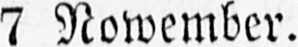7 Nowember.
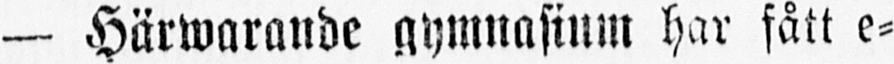— Härwarande gymnasium har fått e-
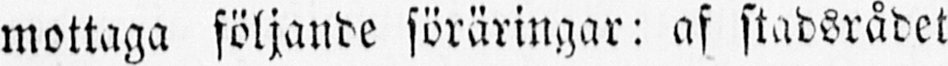mottaga följande föräringar: af stadsrådet
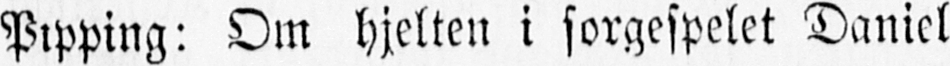Pipping: Om hjelten i sorgespelet Daniel
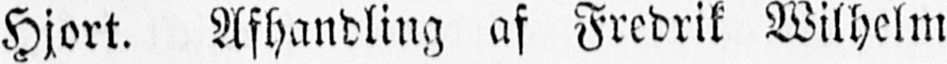Hjort. Afhandling af Fredrik Wilhelm
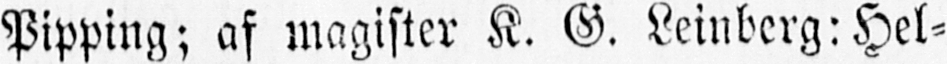Pipping; af magister K. G. Leinberg: Hel-
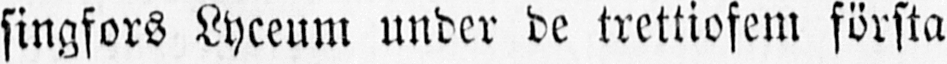singfors Lyceum under de trettiofem första
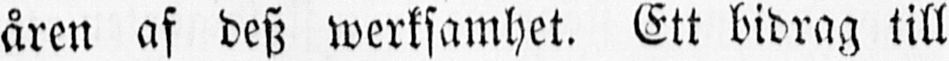åren af desz werksamhet. Ett bidrag till
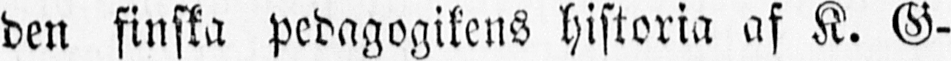den finska pedagogikens historia af K. G-
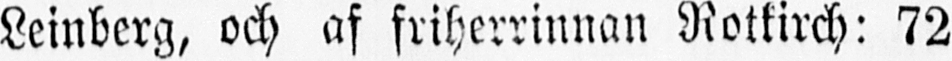Leinberg, och af friherrinnan Rotkirch: 72
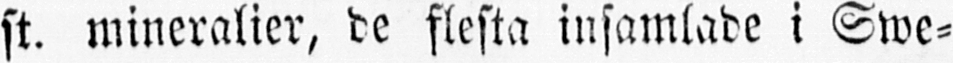st. mineralier, de flesta insamlade i Swe-
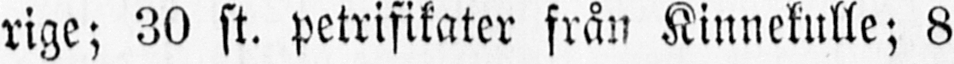rige; 30 st. petrifikater från Kinnekulle; 8
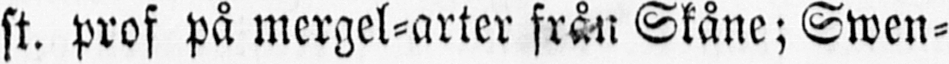st. prof på mergel-arter från Skåne; Swen-
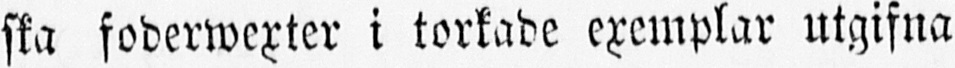ska foderwexter i torkade exemplar utgifna
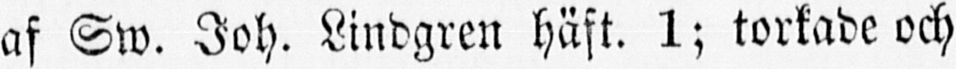af Sw. Joh. Lindgren häft. 1; torkade och
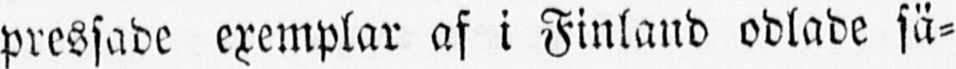pressade exemplar af i Finland odlade sä-
